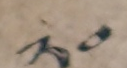༢༠
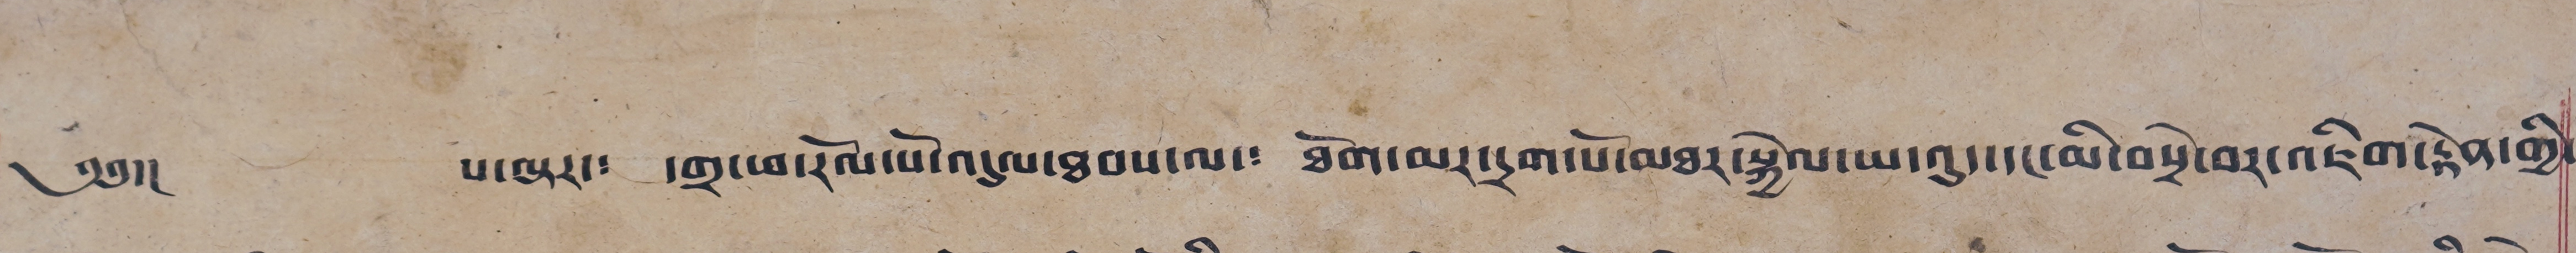༄༅།། པ་ལྟར་༴ དགྲ་ཕ་རོལ་པོ་འདུལ་ཐབས་ལ་༴ ཐོག་མར་དྲག་པོ་མཐར་སྐྱེལ་ཡ་འུད་དང་མི་བསྲེ་བར་འཇིག་རྟེན་གྱི་
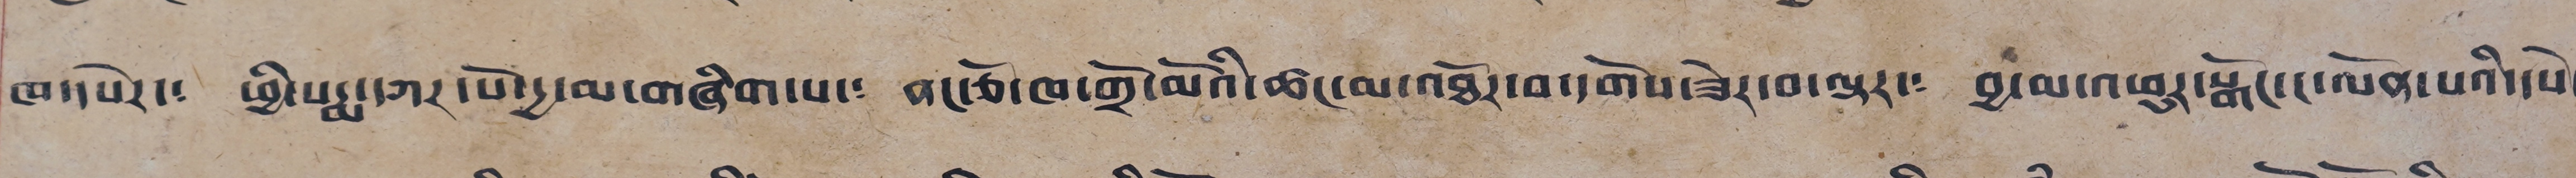ཁ་དཔེར་༴ ཕྱི་པདྨ་དཀར་པོ་དྱ་མ་གཞིག་པ་༴ ནང་ཅོ་ཁ་གྲོ་མོའི་ཚང་མ་འཐོར་བ་དགོས་ཟེར་བ་ལྟར་༴ བྱ་མ་འཕུར་སྒོང་ང་ལོན་པའི་དཔེ་
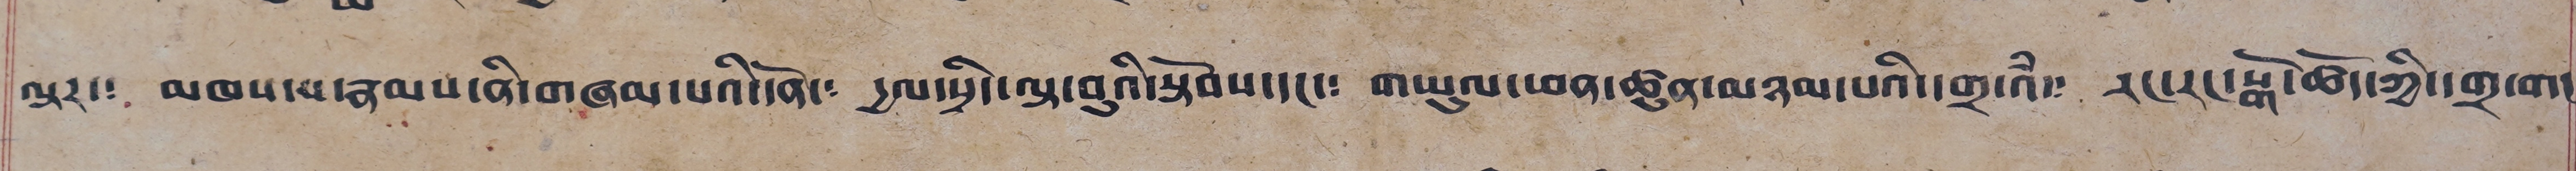ལྟར་༴ མཁས་པ་རྣམས་ནི་གཞལ་པའི་དོན་༴ དྱལ་སྲིད་ལྟ་བུའི་སྟོབས་དང་༴ གཡུལ་ཕན་ཚུན་མཉམ་པའི་དགྲ་འཾ་༴ རང་རང་སྒོ་ཚོད་ཀྱི་དགྲ་གང༴
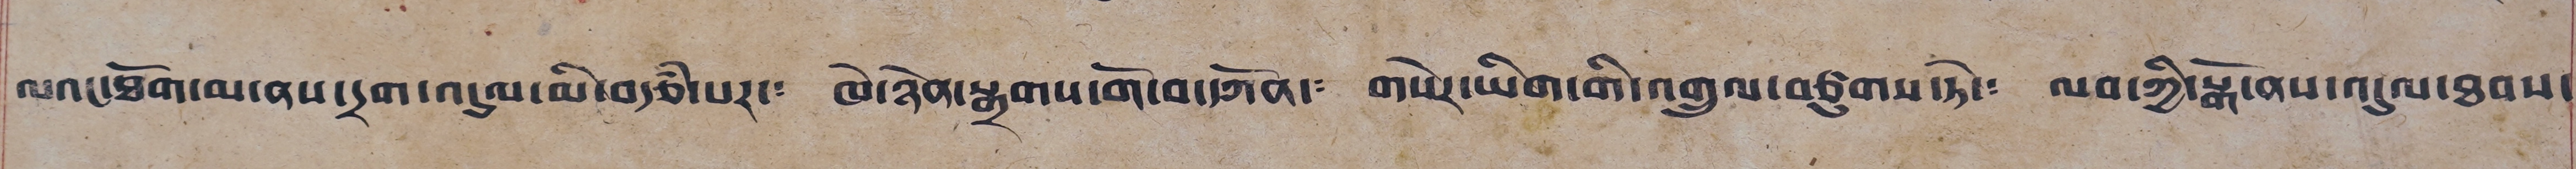ལའང་ཐོག་མ་ནས་དྲག་འདུལ་མི་བརྩི་པར་༴ ཁེ་ཉེན་སྒྲགས་གོ་བ་དཀོན་། གསེར་ཡིག་གི་འགྲུལ་བཙུགས་ཏེ་༴ ལབ་ཀྱི་སྒོ་ནས་འདུལ་ཐབས་
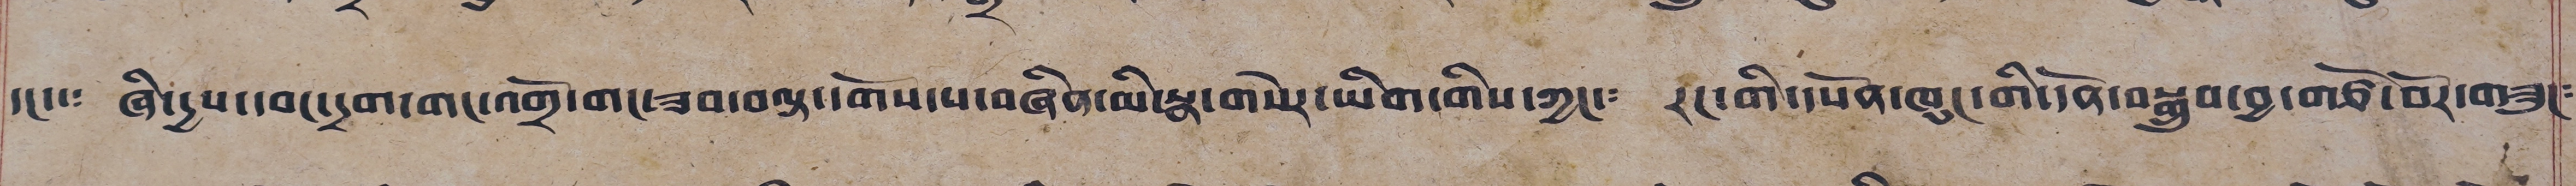དང་༴ ཞི་དྱས་དབང་དྲག་གང་འགྲོ་གང་ཟབ་བལྟ་དགོས་པ་བཞིན་མི་སྣ་གསེར་ཡིག་གིས་ཀྱང་༴ རང་གི་དཔོན་ཁུང་གི་དོན་བསྒྲུབ་བྱ་གཙོ་བོར་གཟུང་༴
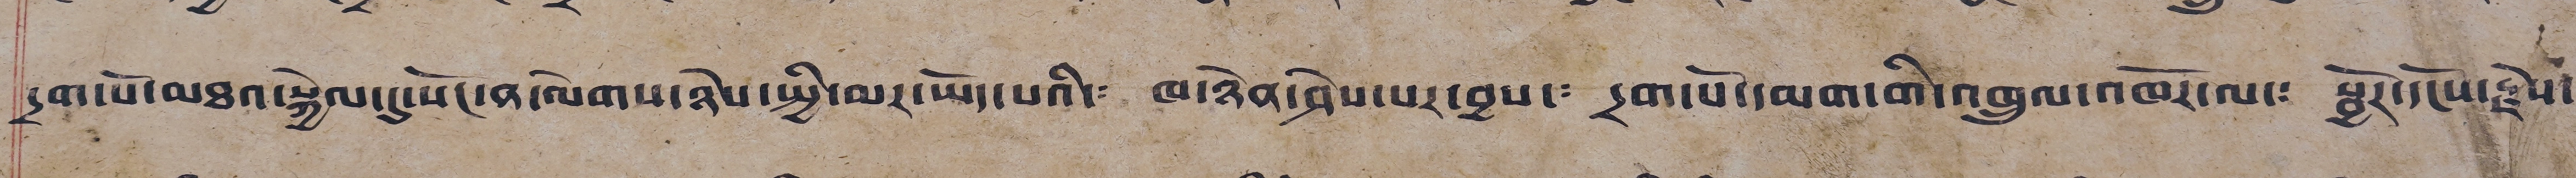དྲག་པོ་མཐའ་སྐྱེལ་དུ་སོང་ན་ལེགས་ཉེས་སྤྱི་མར་ཡོད་པའི་༴ ཁ་ཉེན་ཤེས་པར་བྱས་༴ དྲག་པོ་དམག་གི་འཁྲུལ་འཁོར་ལ་༴ སྦྱོར་དངོས་རྗེས་
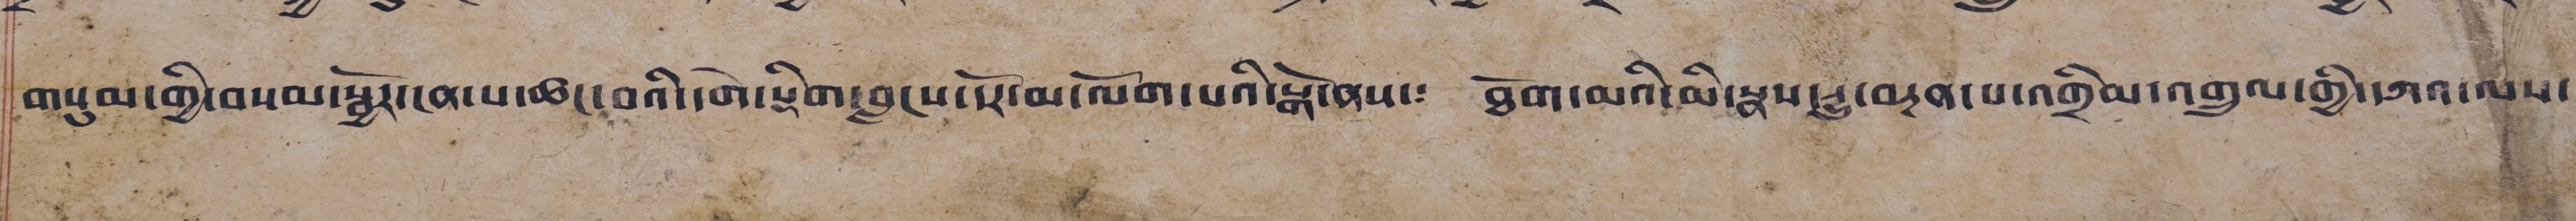གསུམ་གྱི་བསམ་སྦྱོར་ངན་པ་ཚང་བའི་དགེ་སྡིག་བླངས་སོ་མ་ལོག་པའི་སྒོ་ནས་༴ ཐོག་མའི་མི་སྣས་རྒྱུ་བརྔན་པ་འགྲིམ་འགྲུལ་གྱི་དཀའ་ལས་
